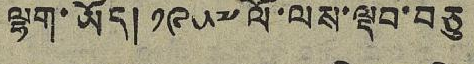ལྷག་ཡོད། ༡༩༥༧ ལོ་ལས་ལྡབ་བཅུ
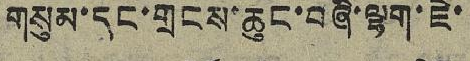གསུམ་དང་གྲངས་ཆུང་བཞི་ལྷག་ཇེ་
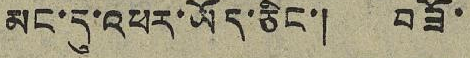མང་དུ་འཕར་ཡོད་ཅིང་། བཟོ་
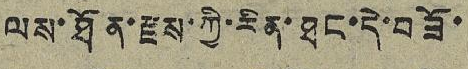ལས་ཐོན་རྫས་ཀྱི་རིན་ཐང་དེ་བཟོ་
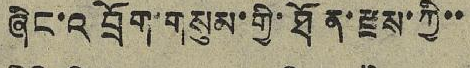ཞིང་འབྲོག་གསུམ་གྱི་ཐོན་རྫས་ཀྱི་་
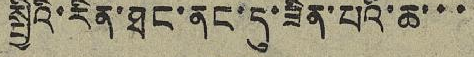སྤྱིའི་རིན་ཐང་ནང་དུ་ཟིན་པའི་ཆ་་་
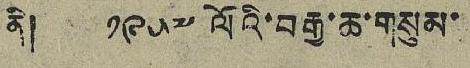ནི། ༡༩༥༧ ལོའི་བརྒྱ་ཆ་གསུམ་
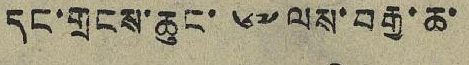དང་གྲངས་ཆུང་ ༦༧ ལས་བརྒྱ་ཆ་
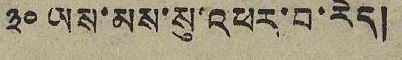༣༠ ཡས་མས་སུ་འཕར་བ་རེད།
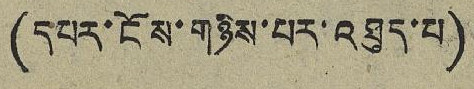(དཔར་ངོས་གཉིས་པར་འཐུད་པ)
